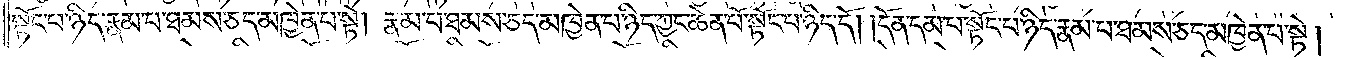སྟོང་པ་ཉིད་རྣམ་པ་ཐམས་ཅད་མཁྱེན་པ་སྟེ། རྣམ་པ་ཐམས་ཅད་མཁྱེན་པ་ཉིད་ཀྱང་ཆེན་པོ་སྟོང་པ་ཉིད་དོ། །དོན་དམ་པ་སྟོང་པ་ཉིད་རྣམ་པ་ཐམས་ཅད་མཁྱེན་པ་སྟེ།
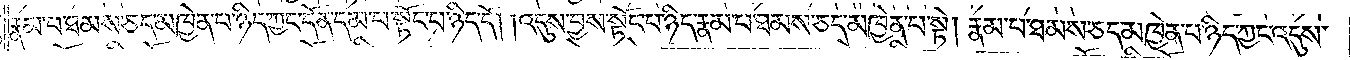རྣམ་པ་ཐམས་ཅད་མཁྱེན་པ་ཉིད་ཀྱང་དོན་དམ་པ་སྟོང་པ་ཉིད་དོ། །འདུས་བྱས་སྟོང་པ་ཉིད་རྣམ་པ་ཐམས་ཅད་མཁྱེན་པ་སྟེ། རྣམ་པ་ཐམས་ཅད་མཁྱེན་པ་ཉིད་ཀྱང་འདུས་
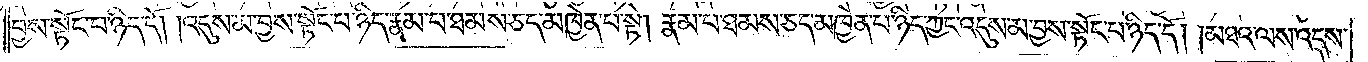བྱས་སྟོང་པ་ཉིད་དོ། །འདུས་མ་བྱས་སྟོང་པ་ཉིད་རྣམ་པ་ཐམས་ཅད་མཁྱེན་པ་སྟེ། རྣམ་པ་ཐམས་ཅད་མཁྱེན་པ་ཉིད་ཀྱང་འདུས་མ་བྱས་སྟོང་པ་ཉིད་དོ། །མཐའ་ལས་འདས་
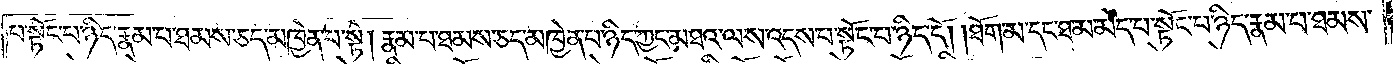པ་སྟོང་པ་ཉིད་རྣམ་པ་ཐམས་ཅད་མཁྱེན་པ་སྟེ། རྣམ་པ་ཐམས་ཅད་མཁྱེན་པ་ཉིད་ཀྱང་མཐའ་ལས་འདས་པ་སྟོང་པ་ཉིད་དོ། །ཐོག་མ་དང་ཐ་མ་མེད་པ་སྟོང་པ་ཉིད་རྣམ་པ་ཐམས་
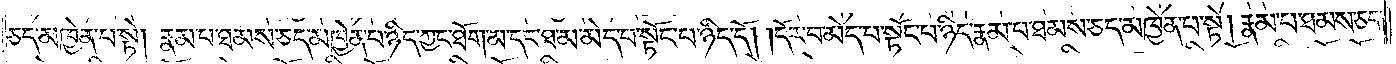ཅད་མཁྱེན་པ་སྟེ། རྣམ་པ་ཐམས་ཅད་མཁྱེན་པ་ཉིད་ཀྱང་ཐོག་མ་དང་ཐ་མ་མེད་པ་སྟོང་པ་ཉིད་དོ། །དོར་བ་མེད་པ་སྟོང་པ་ཉིད་རྣམ་པ་ཐམས་ཅད་མཁྱེན་པ་སྟེ། རྣམ་པ་ཐམས་ཅད་
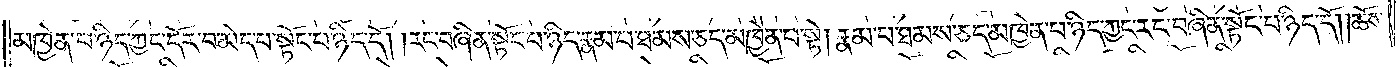མཁྱེན་པ་ཉིད་ཀྱང་དོར་བ་མེད་པ་སྟོང་པ་ཉིད་དོ། །རང་བཞིན་སྟོང་པ་ཉིད་རྣམ་པ་ཐམས་ཅད་མཁྱེན་པ་སྟེ། རྣམ་པ་ཐམས་ཅད་མཁྱེན་པ་ཉིད་ཀྱང་རང་བཞིན་སྟོང་པ་ཉིད་དོ། །ཆོས་
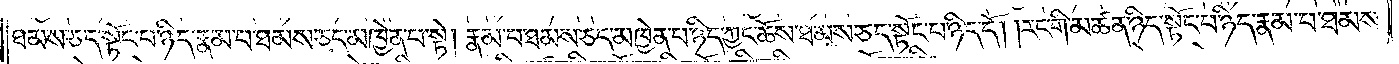ཐམས་ཅད་སྟོང་པ་ཉིད་རྣམ་པ་ཐམས་ཅད་མཁྱེན་པ་སྟེ། རྣམ་པ་ཐམས་ཅད་མཁྱེན་པ་ཉིད་ཀྱང་ཆོས་ཐམས་ཅད་སྟོང་པ་ཉིད་དོ། །རང་གི་མཚན་ཉིད་སྟོང་པ་ཉིད་རྣམ་པ་ཐམས་
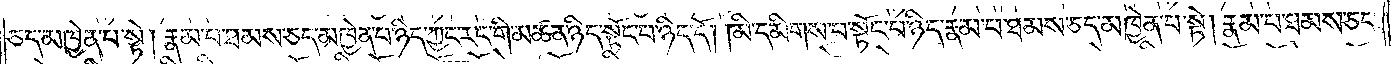ཅད་མཁྱེན་པ་སྟེ། རྣམ་པ་ཐམས་ཅད་མཁྱེན་པ་ཉིད་ཀྱང་རང་གི་མཚན་ཉིད་སྟོང་པ་ཉིད་དོ། །མི་དམིགས་པ་སྟོང་པ་ཉིད་རྣམ་པ་ཐམས་ཅད་མཁྱེན་པ་སྟེ། རྣམ་པ་ཐམས་ཅད་
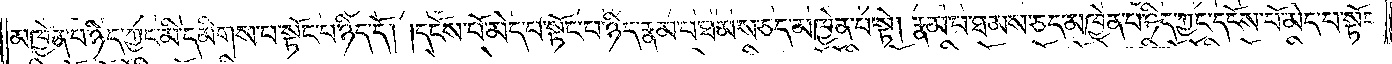མཁྱེན་པ་ཉིད་ཀྱང་མི་དམིགས་པ་སྟོང་པ་ཉིད་དོ། །དངོས་པོ་མེད་པ་སྟོང་པ་ཉིད་རྣམ་པ་ཐམས་ཅད་མཁྱེན་པ་སྟེ། རྣམ་པ་ཐམས་ཅད་མཁྱེན་པ་ཉིད་ཀྱང་དངོས་པོ་མེད་པ་སྟོང་
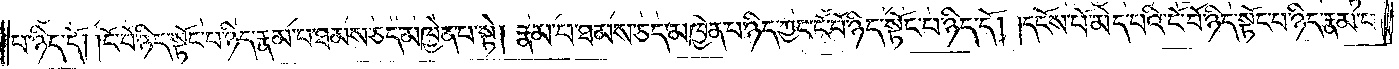པ་ཉིད་དོ། །ངོ་བོ་ཉིད་སྟོང་པ་ཉིད་རྣམ་པ་ཐམས་ཅད་མཁྱེན་པ་སྟེ། རྣམ་པ་ཐམས་ཅད་མཁྱེན་པ་ཉིད་ཀྱང་ངོ་བོ་ཉིད་སྟོང་པ་ཉིད་དོ། །དངོས་པོ་མེད་པའི་ངོ་བོ་ཉིད་སྟོང་པ་ཉིད་རྣམ་པ་
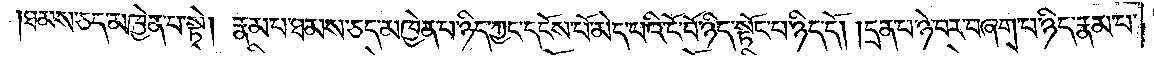ཐམས་ཅད་མཁྱེན་པ་སྟེ། རྣམ་པ་ཐམས་ཅད་མཁྱེན་པ་ཉིད་ཀྱང་དངོས་པོ་མེད་པའི་ངོ་བོ་ཉིད་སྟོང་པ་ཉིད་དོ། །དྲན་པ་ཉེ་བར་བཞག་པ་ཉིད་རྣམ་པ་
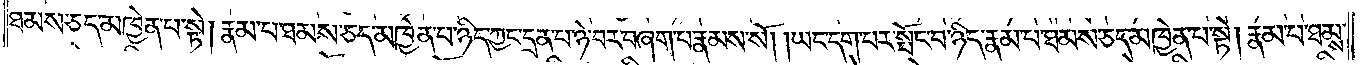ཐམས་ཅད་མཁྱེན་པ་སྟེ། རྣམ་པ་ཐམས་ཅད་མཁྱེན་པ་ཉིད་ཀྱང་དྲན་པ་ཉེ་བར་བཞག་པ་རྣམས་སོ། །ཡང་དག་པར་སྤོང་བ་ཉིད་རྣམ་པ་ཐམས་ཅད་མཁྱེན་པ་སྟེ། རྣམ་པ་ཐམས་
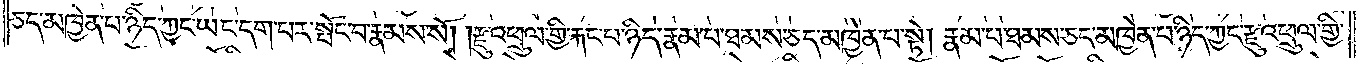ཅད་མཁྱེན་པ་ཉིད་ཀྱང་ཡང་དག་པར་སྤོང་བ་རྣམས་སོ། །རྫུ་འཕྲུལ་གྱི་རྐང་པ་ཉིད་རྣམ་པ་ཐམས་ཅད་མཁྱེན་པ་སྟེ། རྣམ་པ་ཐམས་ཅད་མཁྱེན་པ་ཉིད་ཀྱང་རྫུ་འཕྲུལ་གྱི་
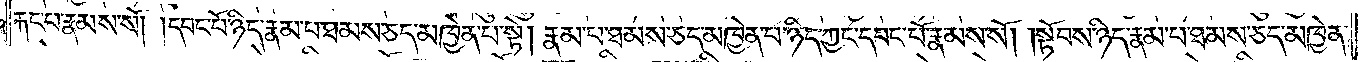རྐང་པ་རྣམས་སོ། །དབང་པོ་ཉིད་རྣམ་པ་ཐམས་ཅད་མཁྱེན་པ་སྟེ། རྣམ་པ་ཐམས་ཅད་མཁྱེན་པ་ཉིད་ཀྱང་དབང་པོ་རྣམས་སོ། །སྟོབས་ཉིད་རྣམ་པ་ཐམས་ཅད་མཁྱེན་
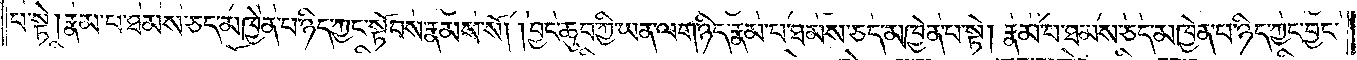པ་སྟེ། རྣམ་པ་ཐམས་ཅད་མཁྱེན་པ་ཉིད་ཀྱང་སྟོབས་རྣམས་སོ། །བྱང་ཆུབ་ཀྱི་ཡན་ལག་ཉིད་རྣམ་པ་ཐམས་ཅད་མཁྱེན་པ་སྟེ། རྣམ་པ་ཐམས་ཅད་མཁྱེན་པ་ཉིད་ཀྱང་བྱང་
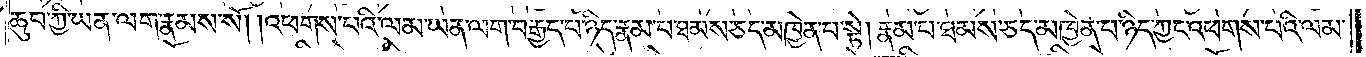ཆུབ་ཀྱི་ཡན་ལག་རྣམས་སོ། །འཕགས་པའི་ལམ་ཡན་ལག་བརྒྱད་པ་ཉིད་རྣམ་པ་ཐམས་ཅད་མཁྱེན་པ་སྟེ། རྣམ་པ་ཐམས་ཅད་མཁྱེན་པ་ཉིད་ཀྱང་འཕགས་པའི་ལམ་
